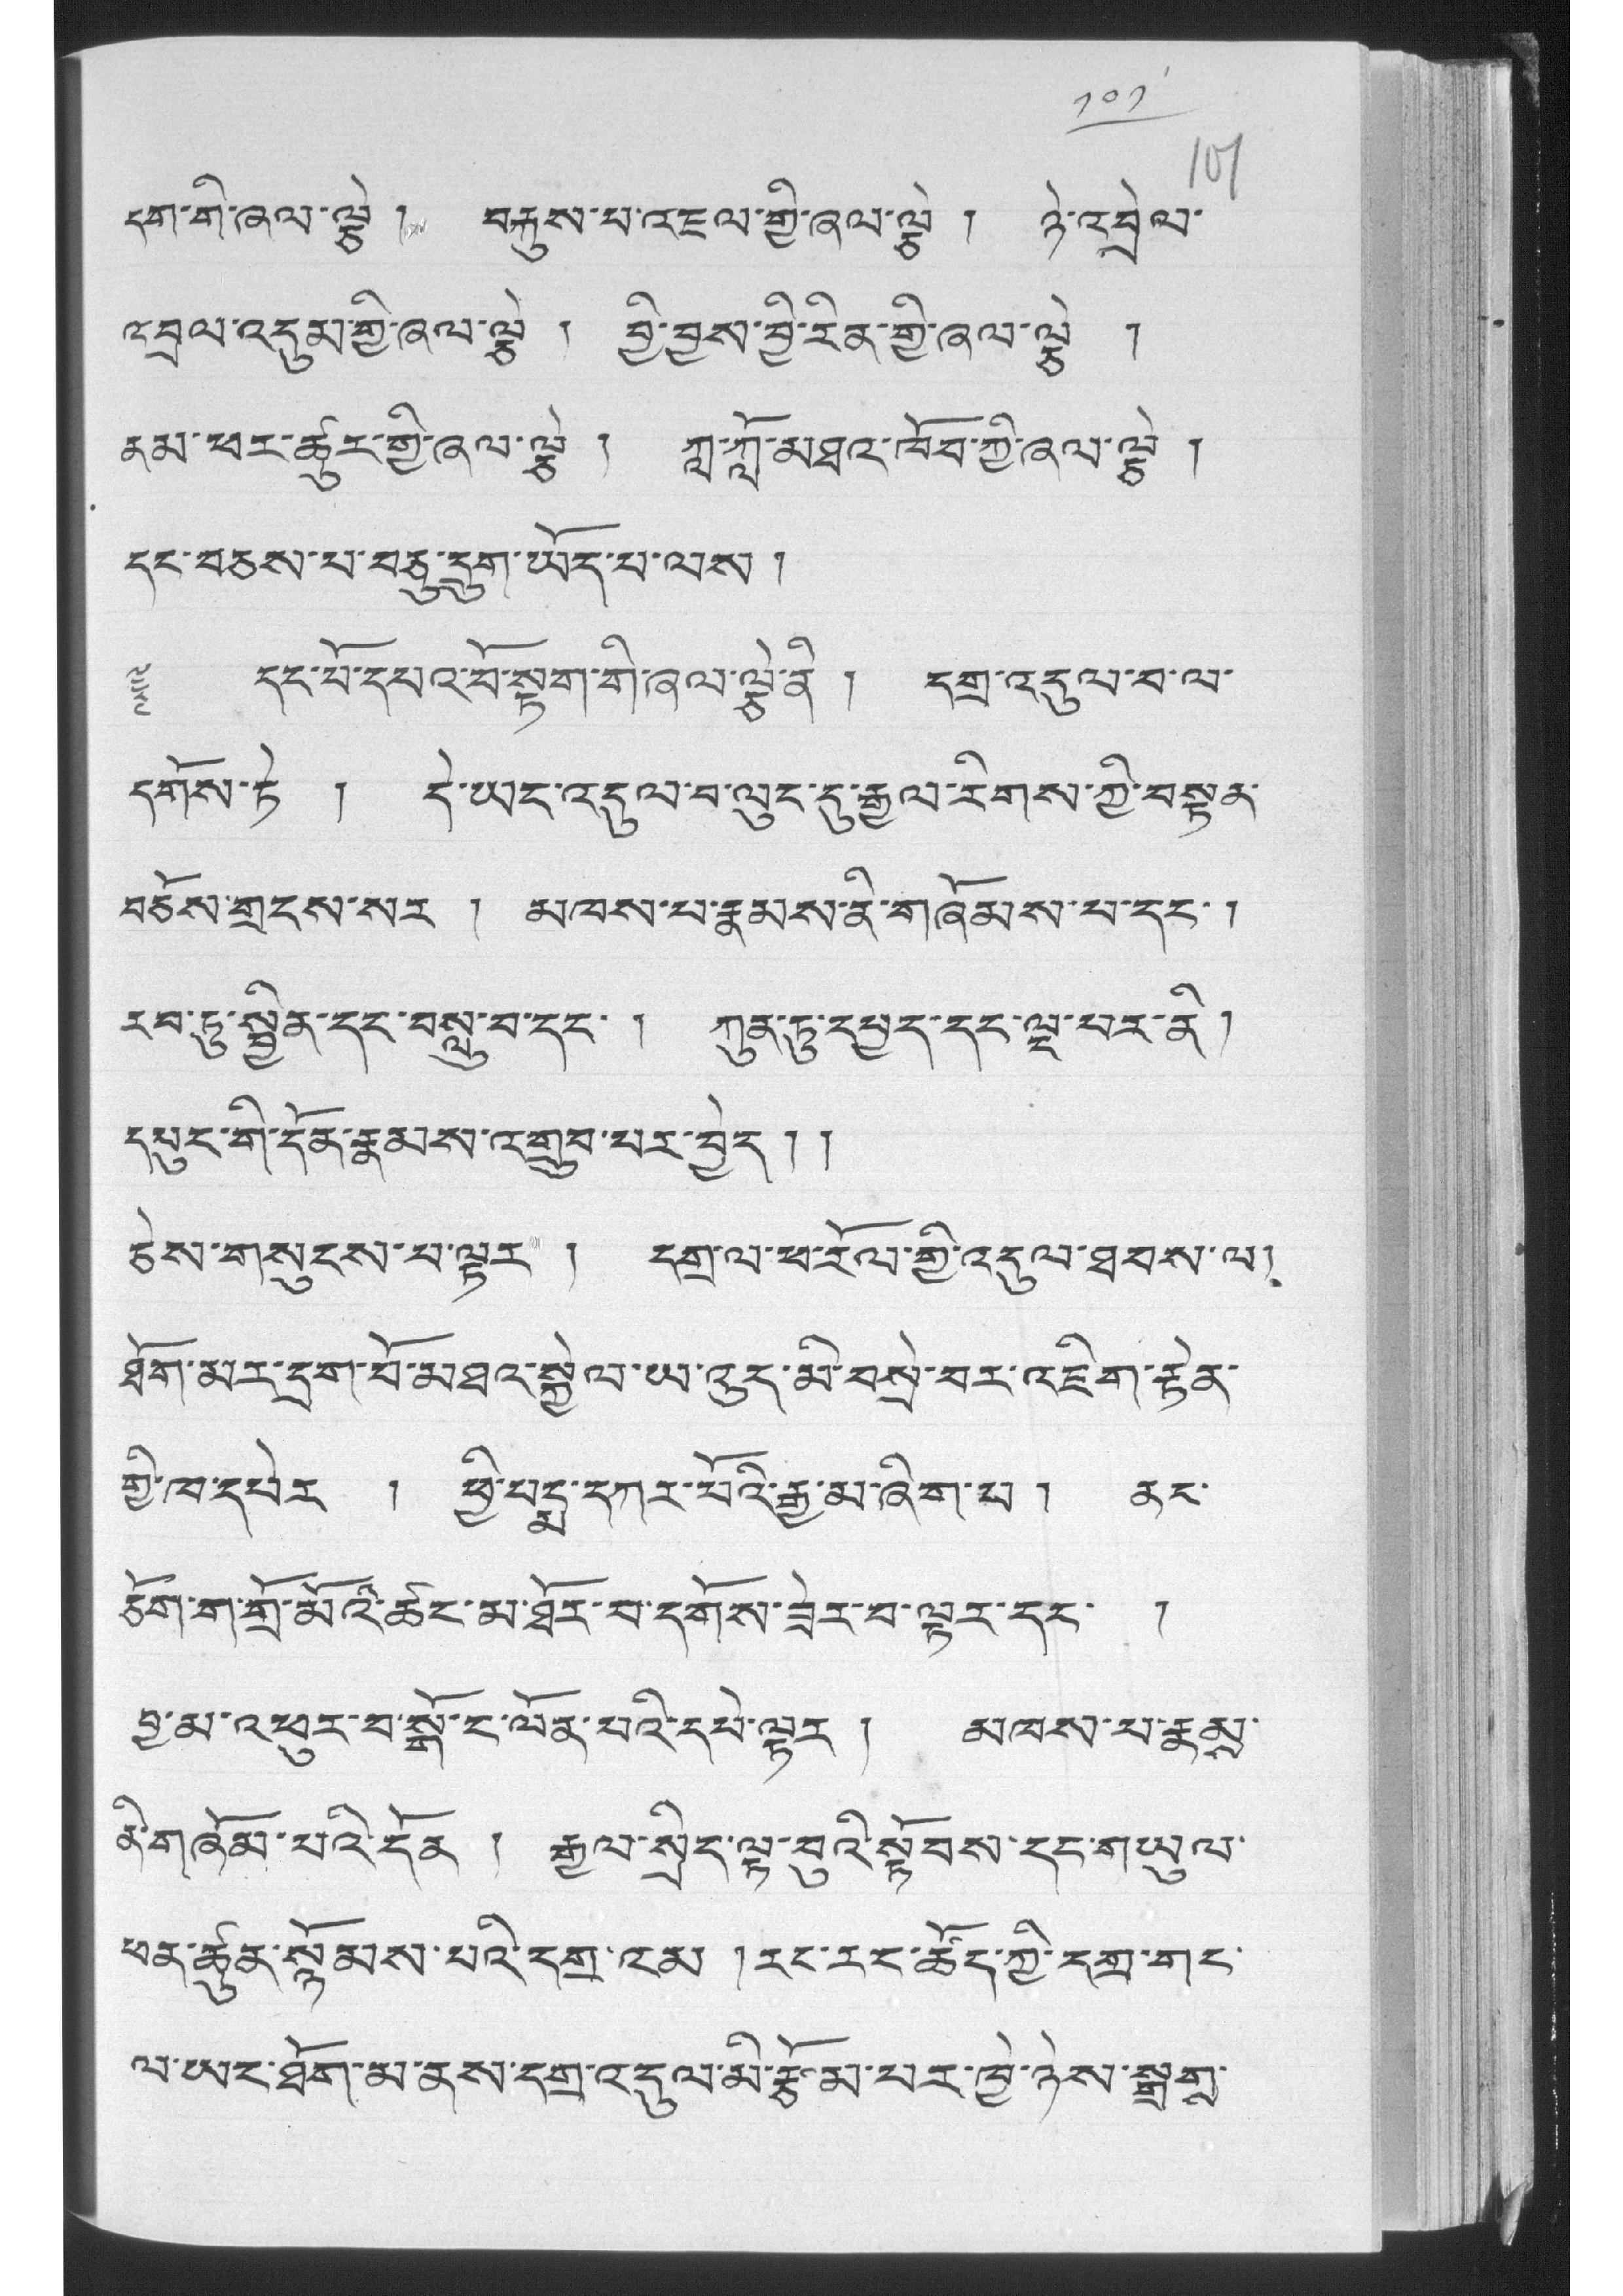༡༠༡
དག་གི་ཞལ་ལྕེ ། བརྐུས་པ་འཇལ་གྱི་ཞལ་ལྕེ ། ཉེ་འབྲེལ་
འབྲལ་འདུམ་གྱི་ཞལ་ལྕེ ། བྱི་བྱས་བྱི་རིན་གྱི་ཞལ་ལྕེ །
ནམ་ཕར་ཚུར་གྱི་ཞལ་ལྕེ ། ཀླ་ཀློ་མཐའ་ཁོབ་ཀྱི་ཞལ་ལྕེ །
དང་བཅས་པ་བཅུ་དྲུག་ཡོད་པ་ལས །
༈ དང་བོ་དཔའ་བོ་སྟག་གི་ཞལ་ལྕེ་ནི ། དགྲ་འདུལ་བ་ལ་
དགོས་ཏེ ། དེ་ཡང་འདུལ་བ་ལུང་དུ་རྒྱལ་རིགས་ཀྱི་བསྟན་
བཅོས་གྲངས་སར ། མཁས་པ་རྣམས་ནི་གཞོམས་པ་དང་།
རབ་ཏུ་སྦྱིན་དང་བསླུ་བ་དང་ ། ཀུན་ཏུ་དཔྱད་དང་ལྔ་པར་ནི།
དཔུང་གི་དོན་རྣམས་འགྲུབ་པར་བྱེད།།
ཅེས་གསུངས་པ་ལྟར ། དགྲ་ལ་ཕ་རོལ་གྱི་འདུལ་ཐབས་ལ།
ཐོག་མར་དྲག་པོ་མཐའ་སྐྱེལ་ཡ་འུད་མི་བསྲེ་བར་འཇིག་རྟེན་
གྱི་ཁ་དཔེར ། ཕྱི་པདྨ་དཀར་པོའི་རྒྱ་མ་ཞིག་པ། ནང་
ཅོག་ག་གྲོ་མོའི་ཚང་མ་ཐོར་བ་དགོས་ཟེར་བ་ལྟར་དང་ །
བྱ་མ་འཕུར་བ་སྒོ་ང་ལོན་པའི་དཔེ་ལྟར། མཁས་པ་རྣམས་
ནི་གཞོམ་པའི་དོན ། རྒྱལ་སྲིད་ལྟ་བུའི་སྟོབས་དང་གཡུལ་
ཕན་ཚུན་སྙོམས་པའི་དགྲ་འམ ། རང་རར་ཚོད་ཀྱི་དགྲ་གང་
ལ་ཡང་ཐོག་མ་ནས་དགྲ་འདུལ་མི་རྩོམ་པར་ཁྱེ་ཉེས་སྒྲགས་
